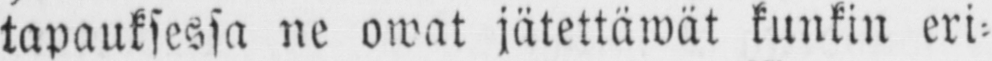tapauksessa ne owat jätettäwät kunkin eri-
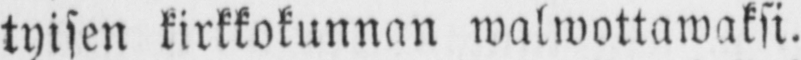tyisen kirkkokunnan walwottawaksi.
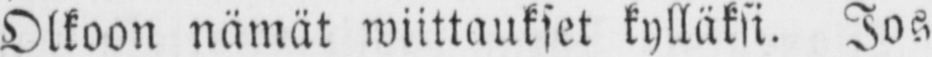Olkoon nämät wiittaukset kylläksi. Jos
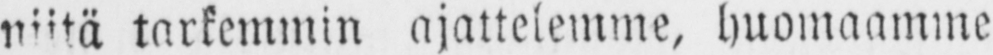niitä tarkemmin ajattelemme, huomaamme
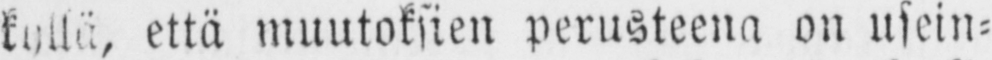kyllä, että muutoksien perusteena on usein-
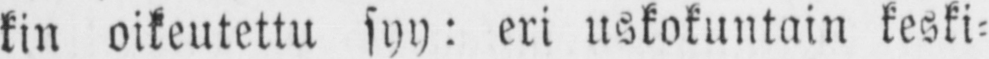kin oikeutettu syy: eri uskokuntain keski-
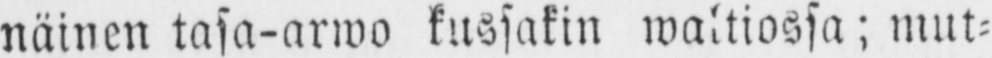näinen tasa-arwo kussakin waltiossa; mut-
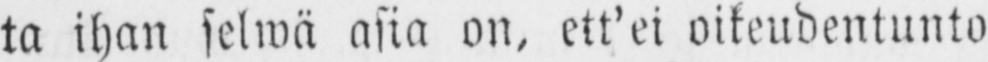ta ihan selwä asia on, ett'ei oikeudentunto
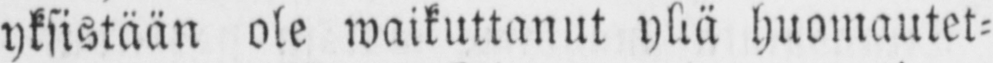yksistään ole waikuttanut yllä huomautet-
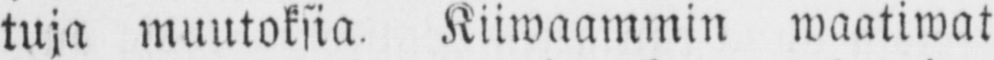tuja muutoksia. Kiiwaammin waatiwat
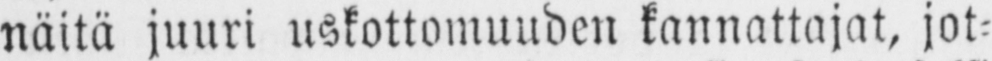näitä juuri uskottomuuden kannattajat, jot-
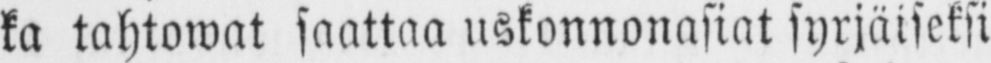ka tahtowat saattaa uskonnonasiat syrjäiseksi
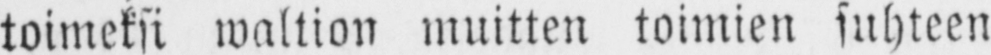toimeksi waltion muitten toimien suhteen
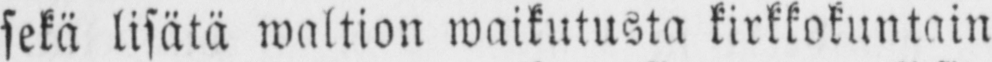sekä lisätä waltion waikutusta kirkkokuntain
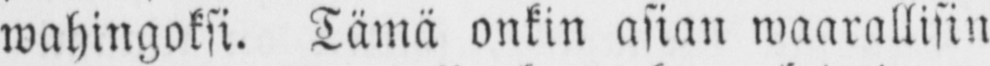wahingoksi. Tämä onkin asian waarallisin
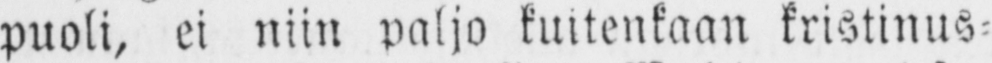puoli, ei niin paljo kuitenkaan kristinus-
